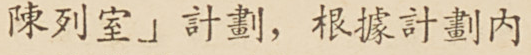陳列室」計劃，根據計劃內
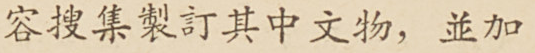容搜集制訂其中文物，並加
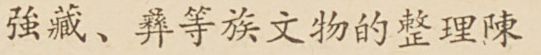強藏、彝等族文物的整理陳
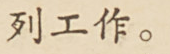列工作。
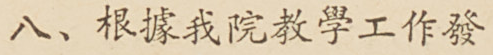八、根據我院教學工作發
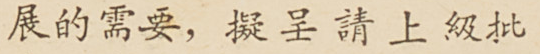展的需要，擬呈請上級批
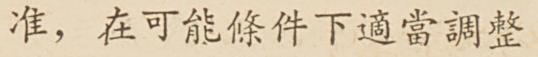准，在可能條件下適當調整
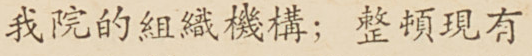我院的組織機構；整頓現有
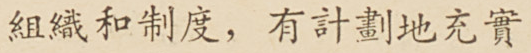組織和制度，有計劃地充實
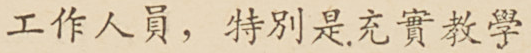工作人員，特別是充實教學
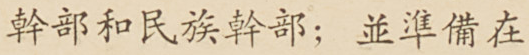幹部和民族幹部；並準備在
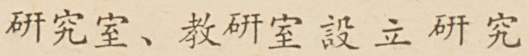研究室、教研室設立研究
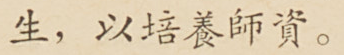生，以培養師資。
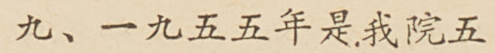九、一九五五年是我院五
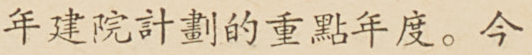年建院計劃的重點年度。今
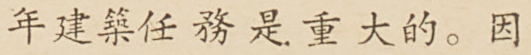年建築任務是重大的。因
